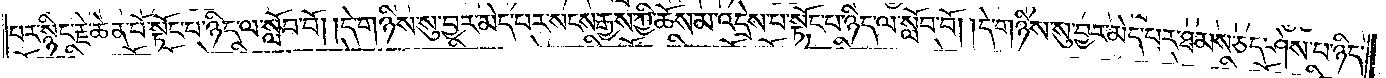པར་སྙིང་རྗེ་ཆེན་པོ་སྟོང་པ་ཉིད་ལ་སློབ་བོ། །དེ་གཉིས་སུ་བྱར་མེད་པར་སངས་རྒྱས་ཀྱི་ཆོས་མ་འདྲེས་པ་སྟོང་པ་ཉིད་ལ་སློབ་བོ། །དེ་གཉིས་སུ་བྱར་མེད་པར་ཐམས་ཅད་ཤེས་པ་ཉིད་
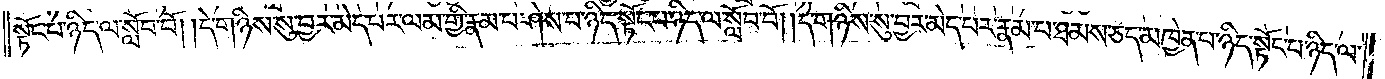སྟོང་པ་ཉིད་ལ་སློབ་བོ། །དེ་གཉིས་སུ་བྱར་མེད་པར་ལམ་གྱི་རྣམ་པ་ཤེས་པ་ཉིད་སྟོང་པ་ཉིད་ལ་སློབ་བོ། །དེ་གཉིས་སུ་བྱར་མེད་པར་རྣམ་པ་ཐམས་ཅད་མཁྱེན་པ་ཉིད་སྟོང་པ་ཉིད་ལ་
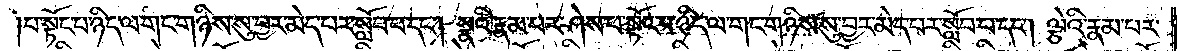པ་སྟོང་པ་ཉིད་ལ་གང་གཉིས་སུ་བྱར་མེད་པར་སློབ་པ་དང༌། སྣའི་རྣམ་པར་ཤེས་པ་སྟོང་པ་ཉིད་ལ་གང་གཉིས་སུ་བྱར་མེད་པར་སློབ་པ་དང༌། ལྕེའི་རྣམ་པར་
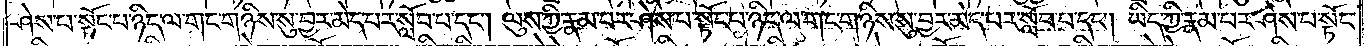ཤེས་པ་སྟོང་པ་ཉིད་ལ་གང་གཉིས་སུ་བྱར་མེད་པར་སློབ་པ་དང༌། ལུས་ཀྱི་རྣམ་པར་ཤེས་པ་སྟོང་པ་ཉིད་ལ་གང་གཉིས་སུ་བྱར་མེད་པར་སློབ་པ་དང༌། །ཡིད་ཀྱི་རྣམ་པར་ཤེས་པ་སྟོང་
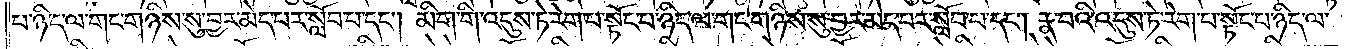པ་ཉིད་ལ་གང་གཉིས་སུ་བྱར་མེད་པར་སློབ་པ་དང༌། མིག་གི་འདུས་ཏེ་རེག་པ་སྟོང་པ་ཉིད་ལ་གང་གཉིས་སུ་བྱར་མེད་པར་སློབ་པ་དང༌། རྣ་བའི་འདུས་ཏེ་རེག་པ་སྟོང་པ་ཉིད་ལ་
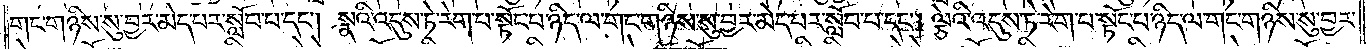གང་གཉིས་སུ་བྱར་མེད་པར་སློབ་པ་དང༌། སྣའི་འདུས་ཏེ་རེག་པ་སྟོང་པ་ཉིད་ལ་གང་གཉིས་སུ་བྱར་མེད་པར་སློབ་པ་དང༌། ལྕེའི་འདུས་ཏེ་རེག་པ་སྟོང་པ་ཉིད་ལ་གང་གཉིས་སུ་བྱར་
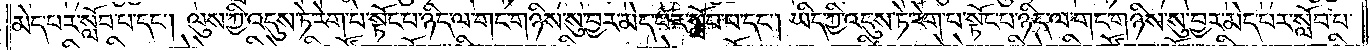མེད་པར་སློབ་པ་དང༌། ལུས་ཀྱི་འདུས་ཏེ་རེག་པ་སྟོང་པ་ཉིད་ལ་གང་གཉིས་སུ་བྱར་མེད་པར་སློབ་པ་དང༌། ཡིད་ཀྱི་འདུས་ཏེ་རེག་པ་སྟོང་པ་ཉིད་ལ་གང་གཉིས་སུ་བྱར་མེད་པར་སློབ་པ་
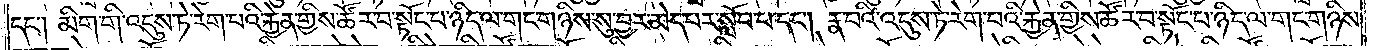དང༌། མིག་གི་འདུས་ཏེ་རེག་པའི་རྐྱེན་གྱིས་ཚོར་བ་སྟོང་པ་ཉིད་ལ་གང་གཉིས་སུ་བྱར་མེད་པར་སློབ་པ་དང༌། རྣ་བའི་འདུས་ཏེ་རེག་པའི་རྐྱེན་གྱིས་ཚོར་བ་སྟོང་པ་ཉིད་ལ་གང་གཉིས་
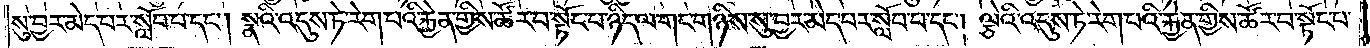སུ་བྱར་མེད་པར་སློབ་པ་དང༌། སྣའི་འདུས་ཏེ་རེག་པའི་རྐྱེན་གྱིས་ཚོར་བ་སྟོང་པ་ཉིད་ལ་གང་གཉིས་སུ་བྱར་མེད་པར་སློབ་པ་དང༌། ལྕེའི་འདུས་ཏེ་རེག་པའི་རྐྱེན་གྱིས་ཚོར་བ་སྟོང་པ་
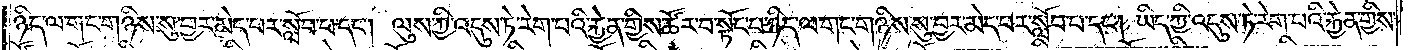ཉིད་ལ་གང་གཉིས་སུ་བྱར་མེད་པར་སློབ་པ་དང༌། ལུས་ཀྱི་འདུས་ཏེ་རེག་པའི་རྐྱེན་གྱིས་ཚོར་བ་སྟོང་པ་ཉིད་ལ་གང་གཉིས་སུ་བྱར་མེད་པར་སློབ་པ་དང༌། ཡིད་ཀྱི་འདུས་ཏེ་རེག་པའི་རྐྱེན་གྱིས་
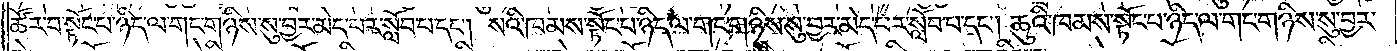ཚོར་བ་སྟོང་པ་ཉིད་ལ་གང་གཉིས་སུ་བྱར་མེད་པར་སློབ་པ་དང༌། སའི་ཁམས་སྟོང་པ་ཉིད་ལ་གང་གཉིས་སུ་བྱར་མེད་པར་སློབ་པ་དང༌། ཆུའི་ཁམས་སྟོང་པ་ཉིད་ལ་གང་གཉིས་སུ་བྱར་
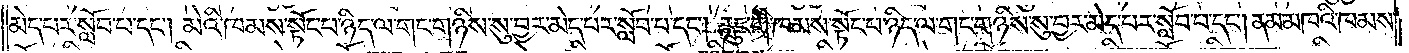མེད་པར་སློབ་པ་དང༌། མེའི་ཁམས་སྟོང་པ་ཉིད་ལ་གང་གཉིས་སུ་བྱར་མེད་པར་སློབ་པ་དང༌། རླུང་གི་ཁམས་སྟོང་པ་ཉིད་ལ་གང་གཉིས་སུ་བྱར་མེད་པར་སློབ་པ་དང༌། ནམ་མཁའི་ཁམས་
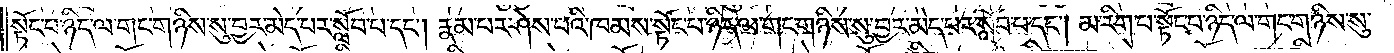སྟོང་པ་ཉིད་ལ་གང་གཉིས་སུ་བྱར་མེད་པར་སློབ་པ་དང༌། རྣམ་པར་ཤེས་པའི་ཁམས་སྟོང་པ་ཉིད་ལ་གང་གཉིས་སུ་བྱར་མེད་པར་སློབ་པ་དང༌། མ་རིག་པ་སྟོང་པ་ཉིད་ལ་གང་གཉིས་སུ་
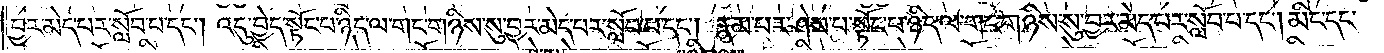བྱར་མེད་པར་སློབ་པ་དང༌། འདུ་བྱེད་སྟོང་པ་ཉིད་ལ་གང་གཉིས་སུ་བྱར་མེད་པར་སློབ་པ་དང༌། རྣམ་པར་ཤེས་པ་སྟོང་པ་ཉིད་ལ་གང་གཉིས་སུ་བྱར་མེད་པར་སློབ་པ་དང༌། མིང་དང་
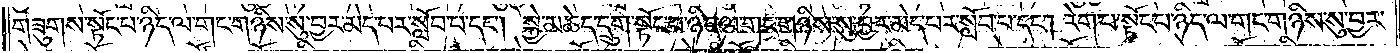གཟུགས་སྟོང་པ་ཉིད་ལ་གང་གཉིས་སུ་བྱར་མེད་པར་སློབ་པ་དང༌། སྐྱེ་མཆེད་དྲུག་སྟོང་པ་ཉིད་ལ་གང་གཉིས་སུ་བྱར་མེད་པར་སློབ་པ་དང༌། རེག་པ་སྟོང་པ་ཉིད་ལ་གང་གཉིས་སུ་བྱར་
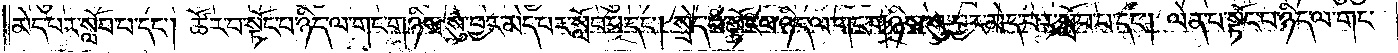མེད་པར་སློབ་པ་དང༌། ཚོར་བ་སྟོང་པ་ཉིད་ལ་གང་གཉིས་སུ་བྱར་མེད་པར་སློབ་པ་དང༌། སྲེད་པ་སྟོང་པ་ཉིད་ལ་གང་གཉིས་སུ་བྱར་མེད་པར་སློབ་པ་དང༌། ལེན་པ་སྟོང་པ་ཉིད་ལ་གང་
